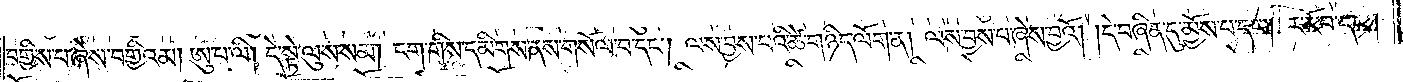བགྱིས་པ་ཞེས་བགྱིའམ། ཨུ་པ་ལི། དེ་སྟེ་ལུས་སམ། ངག་གིས་དམིགས་ནས་གསོལ་བ་དང༌། ལས་བྱས་པའི་ཚེ་གཉིད་ལོག་ན། ལས་བྱས་པ་ཞེས་བྱའོ། །དེ་བཞིན་དུ་མྱོས་པ་དང༌། ར་རོ་བ་དང༌།
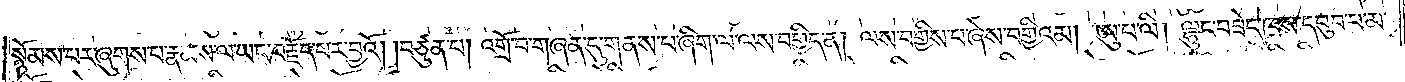སྙོམས་པར་ཞུགས་པ་རྣམས་ལ་ཡང་བརྗོད་པར་བྱའོ། །བཙུན་པ། འགྲོ་བ་གཞན་དུ་གནས་པ་ཞིག་ལ་ལས་བགྱིད་ན། ལས་བགྱིས་པ་ཞེས་བགྱིའམ། ཨུ་པ་ལི། ལྷུང་བཟེད་ཁས་དབུབ་པ་མ་
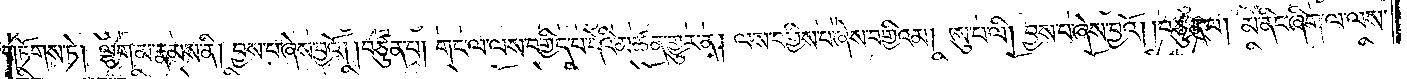གཏོགས་ཏེ། ལྷག་མ་རྣམས་ནི། བྱས་པ་ཞེས་བྱའོ། །བཙུན་པ། གང་ལ་ལས་བགྱིད་པ་དེའི་མཚན་གྱུར་ན། ལས་བགྱིས་པ་ཞེས་བགྱིའམ། ཨུ་པ་ལི། བྱས་པ་ཞེས་བྱའོ། །བཙུན་པ། མ་ནིང་ཞིག་ལ་ལས་
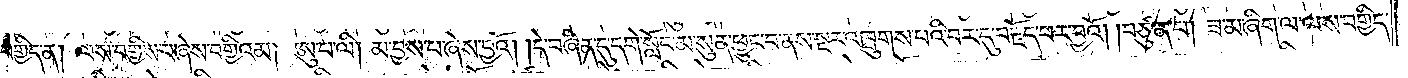བགྱིད་ན། ལས་བགྱིས་པ་ཞེས་བགྱིའམ། ཨུ་པ་ལི། མ་བྱས་པ་ཞེས་བྱའོ། །དེ་བཞིན་དུ་དགེ་སློང་མ་སུན་ཕྱུང་བ་ནས་སྔར་འཁྲུགས་པའི་བར་དུ་བརྗོད་པར་བྱའོ། །བཙུན་པ། ཟ་མ་ཞིག་ལ་ལས་བགྱིད་
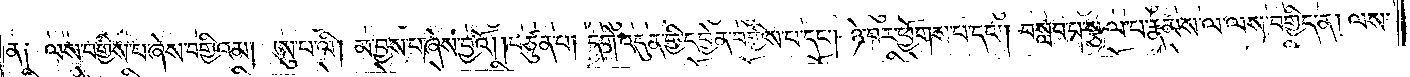ན། ལས་བགྱིས་པ་ཞེས་བགྱིའམ། ཨུ་པ་ལི། མ་བྱས་པ་ཞེས་བྱའོ། །བཙུན་པ། དགེ་འདུན་གྱི་དབྱེན་བགྱིས་པ་དང༌། ཉེ་བར་ཕྱོགས་པ་དང༌། བསླབ་པ་སྩལ་པ་རྣམས་ལ་ལས་བགྱིད་ན། ལས་
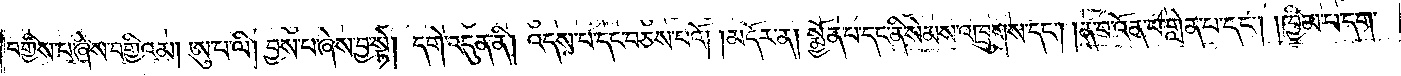བགྱིས་པ་ཞེས་བགྱིའམ། ཨུ་པ་ལི། བྱས་པ་ཞེས་བྱ་སྟེ། དགེ་འདུན་ནི། འདས་པ་དང་བཅས་པའོ། །མདོར་ན། སྨྱོན་པ་དང་ནི་སེམས་འཁྲུགས་དང༌། །ན་བ་འོན་པ་གླེན་པ་དང༌། །ཁྱིམ་པ་དག་
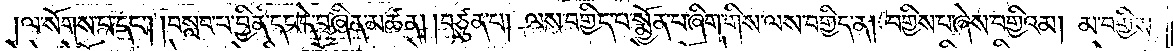།ལ་སོགས་པ་དང༌། །བསླབ་པ་བྱིན་དང་དེ་བཞིན་མཚན། །བཙུན་པ། ལས་བགྱིད་པ་སྨྱོན་པ་ཞིག་གིས་ལས་བགྱིད་ན། བགྱིས་པ་ཞེས་བགྱིའམ། མ་བགྱིས་
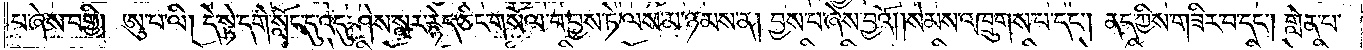པ་ཞེས་བགྱི། ཨུ་པ་ལི། དེ་སྟེ་དགེ་སློང་དུ་འདུ་ཤེས་སླར་རྙེད་ཅིང་གསོལ་བ་བྱས་ཏེ་ལས་མ་ཉམས་ན། བྱས་པ་ཞེས་བྱའོ། །སེམས་འཁྲུགས་པ་དང༌། ནད་ཀྱིས་གཟིར་བ་དང༌། གླེན་པ་
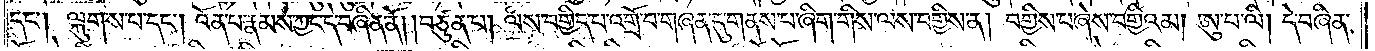དང༌། ལྐུགས་པ་དང༌། འོན་པ་རྣམས་ཀྱང་དེ་བཞིན་ནོ། །བཙུན་པ། ལས་བགྱིད་པ་འགྲོ་བ་གཞན་དུ་གནས་པ་ཞིག་གིས་ལས་བགྱིས་ན། བགྱིས་པ་ཞེས་བགྱིའམ། ཨུ་པ་ལི། དེ་བཞིན་
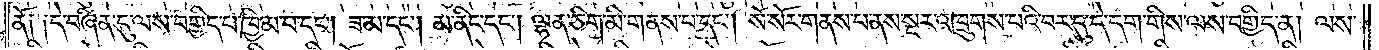ནོ། །དེ་བཞིན་དུ་ལས་བགྱིད་པ་ཁྱིམ་པ་དང༌། ཟ་མ་དང༌། མ་ནིང་དང༌། ལྷན་ཅིག་མི་གནས་པ་དང༌། སོ་སོར་གནས་པ་ནས་སྔར་འཁྲུགས་པའི་བར་དུ་དེ་དག་གིས་ལས་བགྱིད་ན། ལས་
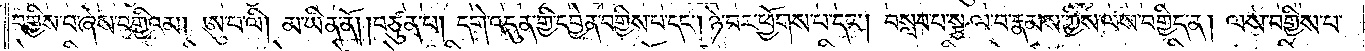བགྱིས་པ་ཞེས་བགྱིའམ། ཨུ་པ་ལི། མ་ཡིན་ནོ། །བཙུན་པ། དགེ་འདུན་གྱི་དབྱེན་བགྱིས་པ་དང༌། ཉེ་བར་ཕྱོགས་པ་དང༌། བསླབ་པ་སྩལ་བ་རྣམས་ཀྱིས་ལས་བགྱིད་ན། ལས་བགྱིས་པ་
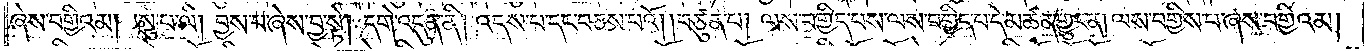ཞེས་བགྱིའམ། ཨུ་པ་ལི། བྱས་པ་ཞེས་བྱ་སྟེ། དགེ་འདུན་ནི། འདས་པ་དང་བཅས་པའོ། །བཙུན་པ། ལས་བགྱིད་པས་ལས་བགྱིད་པ་དེ་མཚན་གྱུར་ན། ལས་བགྱིས་པ་ཞེས་བགྱིའམ།
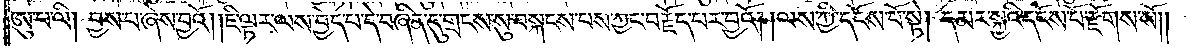ཨུ་པ་ལི། བྱས་པ་ཞེས་བྱའོ། །ཇི་ལྟར་ལས་བྱེད་པ་དེ་བཞིན་དུ་གྲངས་སུ་བསྐངས་པས་ཀྱང་བརྗོད་པར་བྱའོ། །ལས་ཀྱི་དངོས་པོ་སྟེ། དམར་སྐྱའི་དངོས་པོ་རྫོགས་སོ༎
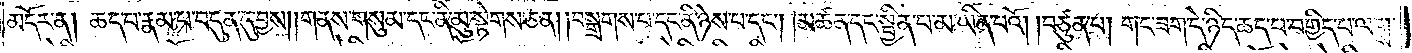མདོར་ན། ཆད་པ་རྣམ་པ་བདུན་དུ་བྱས། །གནས་གསུམ་དང་ནི་མུ་སྟེགས་ཅན། །བསྒྲགས་པ་དང་ནི་ཉེས་པ་དང༌། །མཚན་དང་སྦྱིན་པ་མ་ཡིན་པའོ། །བཙུན་པ། གང་ཟག་དེ་ཉིད་ཆད་པ་བགྱིད་པ་ལགས་
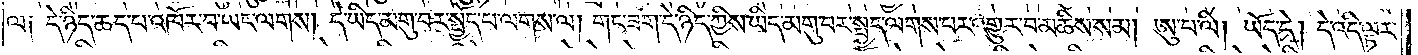ལ། དེ་ཉིད་ཆད་པ་འཁོར་བ་ཡང་ལགས། དེ་ཉིད་མགུ་བར་སྤྱོད་པ་ལགས་ལ། གང་ཟག་དེ་ཉིད་ཀྱིས་ཡིད་མགུ་བར་སྤྱད་ལགས་པར་འགྱུར་བ་མཆིས་སམ། ཨུ་པ་ལི། ཡོད་དེ། དེ་འདི་ལྟར་
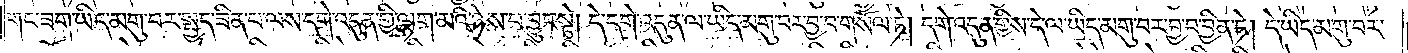གང་ཟག་ཡིད་མགུ་བར་སྤྱད་ཟིན་པ་ལས་དགེ་འདུན་གྱི་ལྷག་མའི་ཉེས་པ་བྱུང་སྟེ། དེ་དགེ་འདུན་ལ་ཡིད་མགུ་བར་བྱ་བ་གསོལ་ཏེ། དགེ་འདུན་གྱིས་དེ་ལ་ཡིད་མགུ་བར་བྱ་བ་བྱིན་ཏེ། དེ་ཡིད་མགུ་བར་
